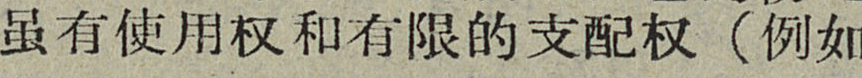虽有使用权和有限的支配权（例如
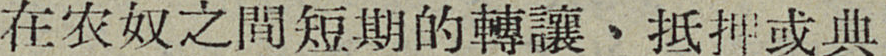在农奴之間短期的轉讓、抵押或典
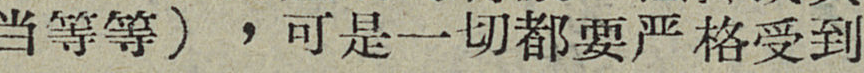当等等），可是一切都要严格受到
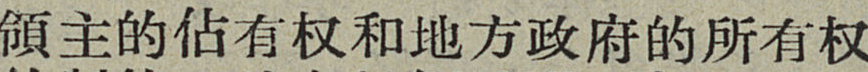領主的佔有权和地方政府的所有权
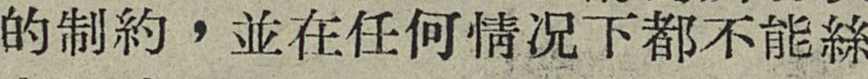的制約，並在任何情況下都不能絲
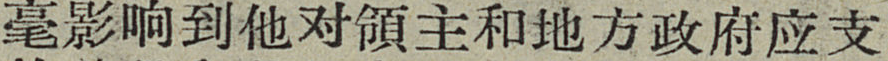毫影响到他对領主和地方政府应支
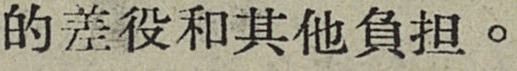的差役和其他負担。
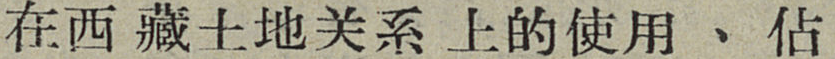在西藏土地关系上的使用、佔
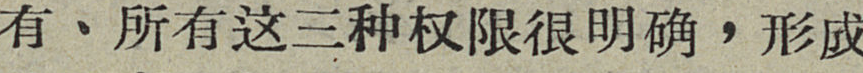由、所有这三种权限很明确，形成
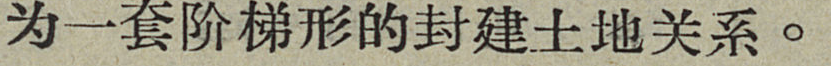为一套阶梯形的封建土地关系。
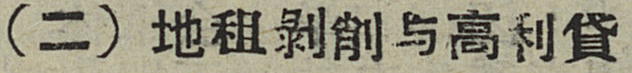（二）地租剝削与高利貸
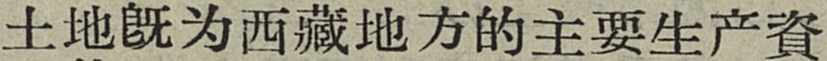土地旣为西藏地方的主要生产資
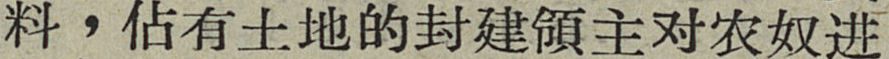料，佔有土地的封建領主对农奴进
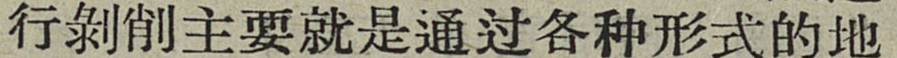行剝削主要就是通过各种形式的地
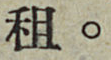租。
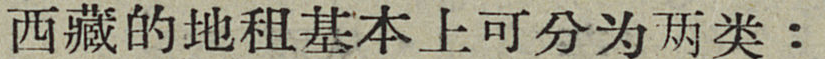西藏的地租基本上可分为两类：
